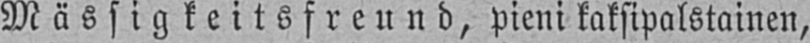Mässigkeitsfreund, pieni kaksipalstainen,
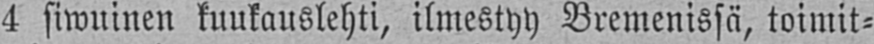4 siwuinen kuukauslehti, ilmestyy Bremenissä, toimit-
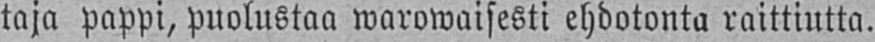taja pappi, puolustaa warowaisesti ehdotonta raittiutta.
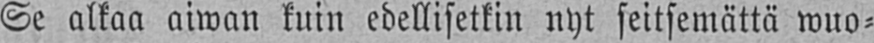Se alkaa aiwan kuin edellisetkin nyt seitsemättä wuo-
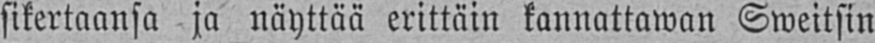sikertaansa ja näyttää erittäin kannattawan Sweitsin
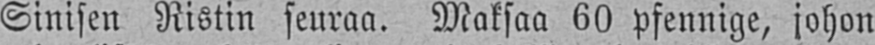Sinisen Ristin seuraa. Maksaa 60 pfennige, johon
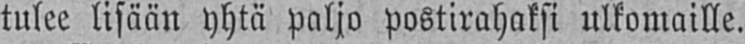tulee lisään yhtä paljo postirahaksi ulkomaille.
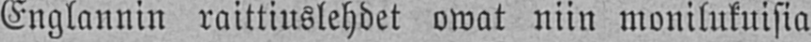Englannin raittiuslehdet owat niin monilukuisia
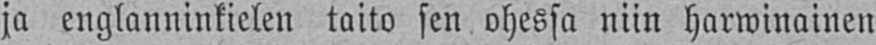ja englanninkielen taito sen ohessa niin harwinainen
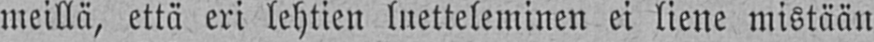meillä, että eri lehtien luetteleminen ei liene mistään
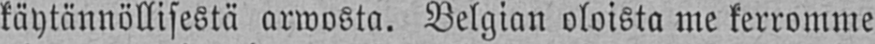käytännöllisestä arwosta. Belgian oloista me kerromme
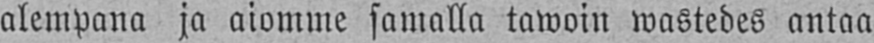alempana ja aiomme samalla tawoin wastedes antaa
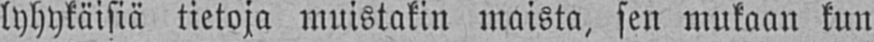lyhykäisiä tietoja muistakin maista, sen mukaan kun
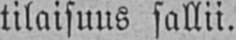tilaisuus sallii.
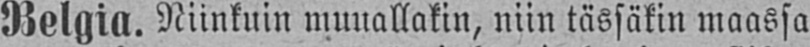Belgia. Niinkuin muuallakin, niin tässäkin maassa
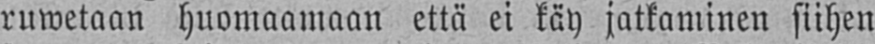ruwetaan huomaamaan että ei käy jatkaminen siihen
